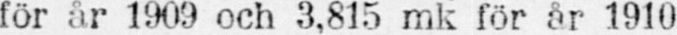för år 1909 och 3,815 mk för år 1910
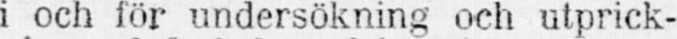i och för undersökning och utprick-
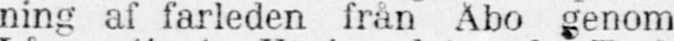ning af farleden från Åbo genom
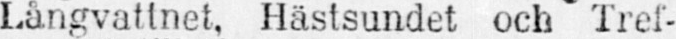Långvattnet, Hästsundet och Tref-
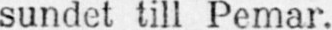sundet till Pemar.
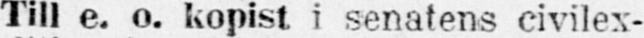Till e. o. kopist i senatens civilex-
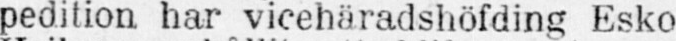pedition har vicehäradshöfding Esko
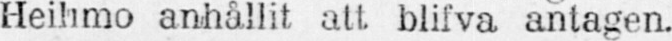Heihmo anhållit att. blifva antagen.
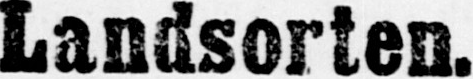Landsorten.
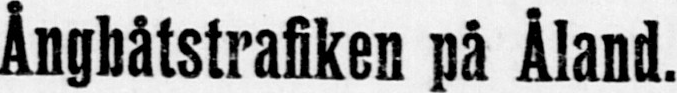Ångbåtstrafiken på Åland.
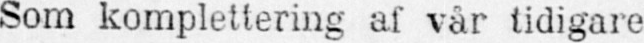Som komplettering af vår tidigare
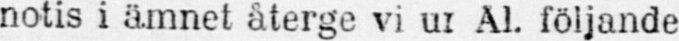notis i ämnet återge vi ur Ål. följande
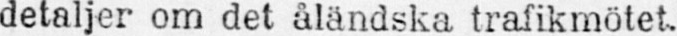detaljer om det åländska trafikmötet.
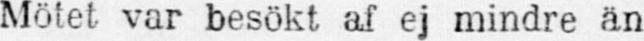Mötet var besökt af ej mindre än
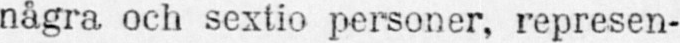några och sextio personer, represen-
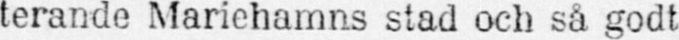terande Mariehamns stad och så godt
